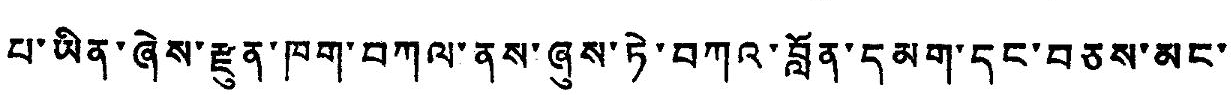པ་ཡིན་ཞེས་རྫུན་ཁག་བཀལ་ནས་ཞུས་ཏེ་བཀའ་བློན་དམག་དང་བཅས་མང་
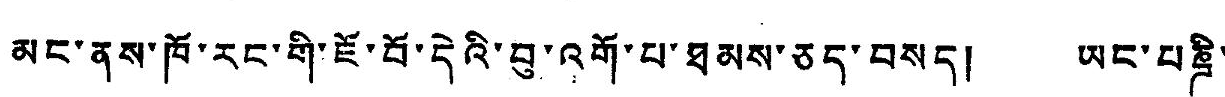མང་ནས་ཁོ་རང་གི་ཇོ་བོ་དེའི་བུ་འགོ་པ་ཐམས་ཅད་བསད། ཡང་པཎྜི་
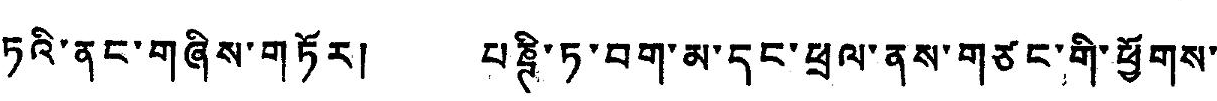ཏའི་ནང་གཞིས་གཏོར། པཎྚི་ཏ་བག་མ་དང་ཕྲལ་ནས་གཙང་གི་ཕྱོགས་
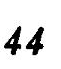44
